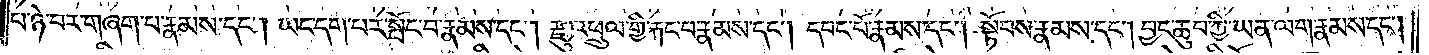པ་ཉེ་བར་གཞག་པ་རྣམས་དང༌། ཡང་དག་པར་སྤོང་བ་རྣམས་དང༌། རྫུ་འཕྲུལ་གྱི་རྐང་པ་རྣམས་དང༌། དབང་པོ་རྣམས་དང༌། སྟོབས་རྣམས་དང༌། བྱང་ཆུབ་ཀྱི་ཡན་ལག་རྣམས་དང༌།
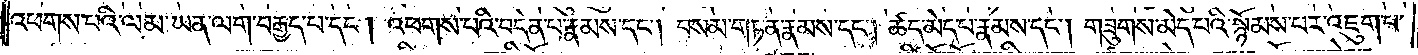འཕགས་པའི་ལམ་ཡན་ལག་བརྒྱད་པ་དང༌། འཕགས་པའི་བདེན་པ་རྣམས་དང༌། བསམ་གཏན་རྣམས་དང༌། ཚད་མེད་པ་རྣམས་དང༌། གཟུགས་མེད་བའི་སྙོམས་པར་འཇུག་པ་
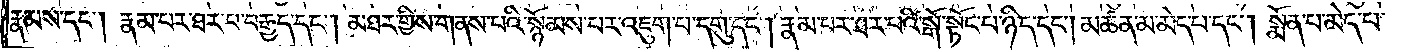རྣམས་དང༌། རྣམ་པར་ཐར་པ་བརྒྱད་དང༌། མཐར་གྱིས་གནས་པའི་སྙོམས་པར་འཇུག་པ་དགུ་དང༌། རྣམ་པར་ཐར་པའི་སྒོ་སྟོང་པ་ཉིད་དང༌། མཚན་མ་མེད་པ་དང༌། སྨོན་པ་མེད་པ་
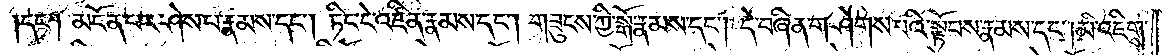དང༌། མངོན་པར་ཤེས་པ་རྣམས་དང༌། ཏིང་ངེ་འཛིན་རྣམས་དང༌། གཟུངས་ཀྱི་སྒོ་རྣམས་དང༌། དེ་བཞིན་གཤེགས་པའི་སྟོབས་རྣམས་དང༌། མི་འཇིགས་
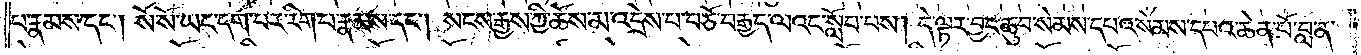པ་རྣམས་དང༌། སོ་སོ་ཡང་དག་པར་རིག་པ་རྣམས་དང༌། སངས་རྒྱས་ཀྱི་ཆོས་མ་འདྲེས་པ་བཅོ་བརྒྱད་ལའང་སློབ་པས། དེ་ལྟར་བྱང་ཆུབ་སེམས་དཔའ་སེམས་དཔའ་ཆེན་པོ་བླ་ན་
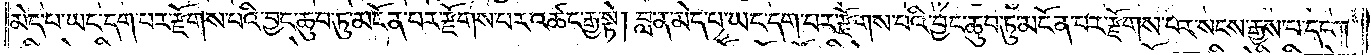མེད་པ་ཡང་དག་པར་རྫོགས་པའི་བྱང་ཆུབ་ཏུ་མངོན་པར་རྫོགས་པར་འཚང་རྒྱ་སྟེ། བླ་ན་མེད་པ་ཡང་དག་པར་རྫོགས་པའི་བྱང་ཆུབ་ཏུ་མངོན་པར་རྫོགས་པར་སངས་རྒྱས་པ་དང༌།
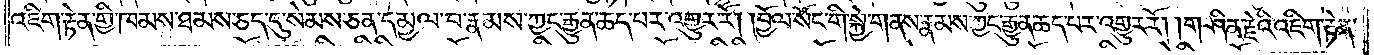འཇིག་རྟེན་གྱི་ཁམས་ཐམས་ཅད་དུ་སེམས་ཅན་དམྱལ་བ་རྣམས་ཀྱང་རྒྱུན་ཆད་པར་འགྱུར་རོ། །བྱོལ་སོང་གི་སྐྱེ་གནས་རྣམས་ཀྱང་རྒྱུན་ཆད་པར་འགྱུར་རོ། །གཤིན་རྗེའི་འཇིག་རྟེན་
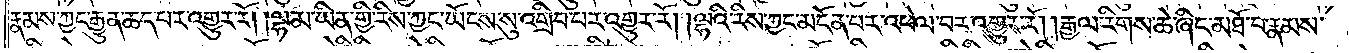རྣམས་ཀྱང་རྒྱུན་ཆད་པར་འགྱུར་རོ། །ལྷ་མ་ཡིན་གྱི་རིས་ཀྱང་ཡོངས་སུ་འགྲིབ་པར་འགྱུར་རོ། །ལྷའི་རིས་ཀྱང་མངོན་པར་འཕེལ་བར་འགྱུར་རོ། །རྒྱལ་རིགས་ཆེ་ཞིང་མཐོ་བ་རྣམས་
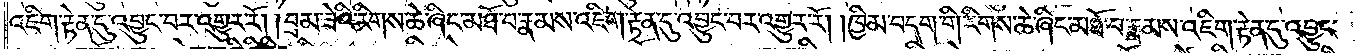འཇིག་རྟེན་དུ་འབྱུང་བར་འགྱུར་རོ། །བྲམ་ཟེའི་རིགས་ཆེ་ཞིང་མཐོ་བ་རྣམས་འཇིག་རྟེན་དུ་འབྱུང་བར་འགྱུར་རོ། །ཁྱིམ་བདག་གི་རིགས་ཆེ་ཞིང་མཐོ་བ་རྣམས་འཇིག་རྟེན་དུ་འབྱུང་
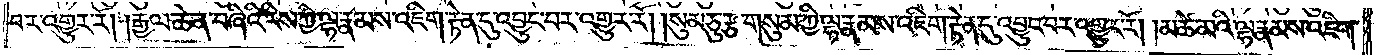བར་འགྱུར་རོ། །རྒྱལ་ཆེན་བཞིའི་རིས་ཀྱི་ལྷ་རྣམས་འཇིག་རྟེན་དུ་འབྱུང་བར་འགྱུར་རོ། །སུམ་ཅུ་རྩ་གསུམ་ཀྱི་ལྷ་རྣམས་འཇིག་རྟེན་དུ་འབྱུང་བར་འགྱུར་རོ། །མཚེ་མའི་ལྷ་རྣམས་འཇིག་
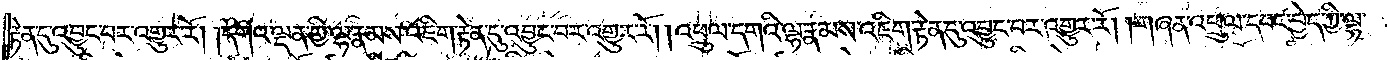རྟེན་དུ་འབྱུང་བར་འགྱུར་རོ། །དགའ་ལྡན་གྱི་ལྷ་རྣམས་འཇིག་རྟེན་དུ་འབྱུང་བར་འགྱུར་རོ། །འཕྲུལ་དགའི་ལྷ་རྣམས་འཇིག་རྟེན་དུ་འབྱུང་བར་འགྱུར་རོ། གཞན་འཕྲུལ་དབང་བྱེད་ཀྱི་ལྷ་
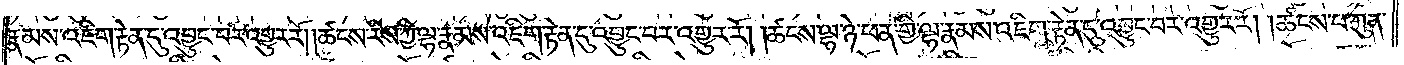རྣམས་འཇིག་རྟེན་དུ་འབྱུང་བར་འགྱུར་རོ། །ཚངས་རིས་ཀྱི་ལྷ་རྣམས་འཇིག་རྟེན་དུ་འབྱུང་བར་འགྱུར་རོ། །ཚངས་ལྷ་ཉེ་ཕན་གྱི་ལྷ་རྣམས་འཇིག་རྟེན་དུ་འབྱུང་བར་འགྱུར་རོ། །ཚངས་པ་ཀུན་
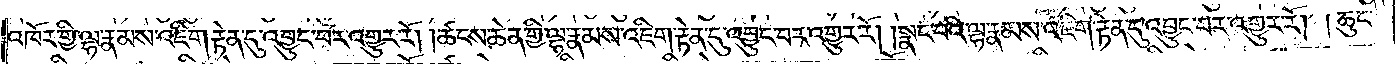འཁོར་གྱི་ལྷ་རྣམས་འཇིག་རྟེན་དུ་འབྱུང་བར་འགྱུར་རོ། །ཚངས་ཆེན་གྱི་ལྷ་རྣམས་འཇིག་རྟེན་དུ་འབྱུང་བར་འགྱུར་རོ། །སྣང་བའི་ལྷ་རྣམས་འཇིག་རྟེན་དུ་འབྱུང་བར་འགྱུར་རོ། །ཆུང་
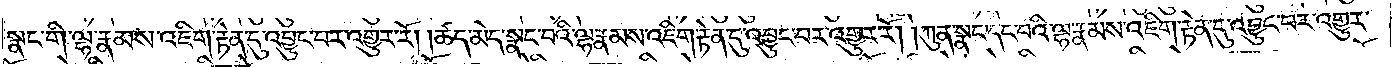སྣང་གི་ལྷ་རྣམས་འཇིག་རྟེན་དུ་འབྱུང་བར་འགྱུར་རོ། །ཚད་མེད་སྣང་བའི་ལྷ་རྣམས་འཇིག་རྟེན་དུ་འབྱུང་བར་འགྱུར་རོ། །ཀུན་སྣང་དང་བའི་ལྷ་རྣམས་འཇིག་རྟེན་དུ་འབྱུང་བར་འགྱུར་
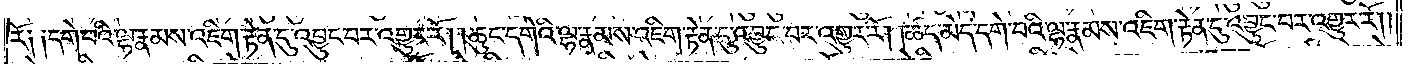རོ༑ ༑དགེ་བའི་ལྷ་རྣམས་འཇིག་རྟེན་དུ་འབྱུང་བར་འགྱུར་རོ། །ཆུང་དགེའི་ལྷ་རྣམས་འཇིག་རྟེན་དུ་འབྱུང་བར་འགྱུར་རོ། །ཚད་མེད་དགེ་བའི་ལྷ་རྣམས་འཇིག་རྟེན་དུ་འབྱུང་བར་འགྱུར་རོ། །
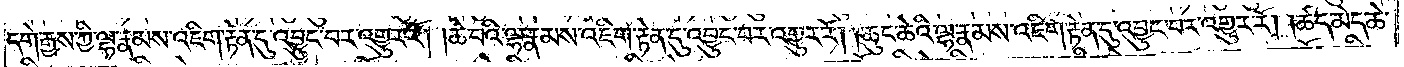དགེ་རྒྱས་ཀྱི་ལྷ་རྣམས་འཇིག་རྟེན་དུ་འབྱུང་བར་འགྱུར་རོ། །ཆེ་བའི་ལྷ་རྣམས་འཇིག་རྟེན་དུ་འབྱུང་བར་འགྱུར་རོ། །ཆུང་ཆེའི་ལྷ་རྣམས་འཇིག་རྟེན་དུ་འབྱུང་བར་འགྱུར་རོ། །ཚད་མེད་ཆེ་
